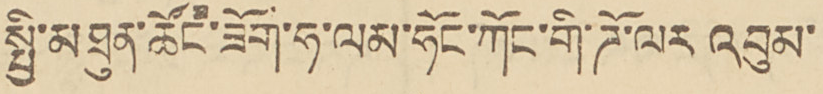སྤྱི་མཐུན་ཚོང་ཟོག་ཧ་ལམ་ཧོང་ཀོང་གི་ཌོ་ལར འབུམ་
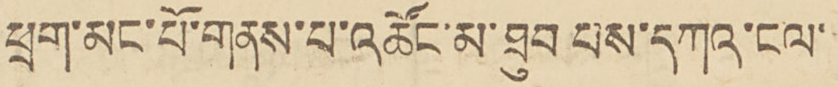ཕྲག་མང་པོ་གནས་པ་འཚོང་མ་ཐུབ པས་དཀའ་ངལ་
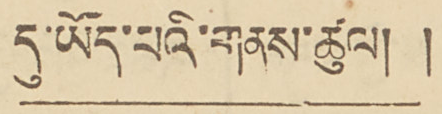དུ་ཡོད་པའི་གནས་ཚུལ། །
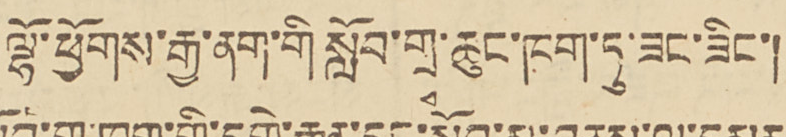ལྷོ་ཕྱོགས་རྒྱ་ནག་གི་སློབ་གྲྭ་ཆུང་ཁག་ཏུ་ཟང་ཟིང་།
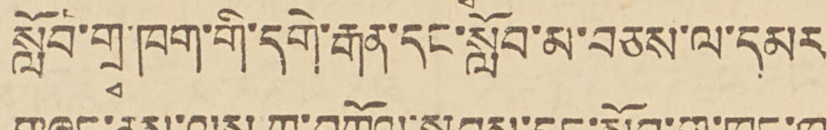སློབ་གྲྭ་ཁག་གོ་དགེ་རྒན་དང་སློབ་མ་བཅས་ལ་དམར
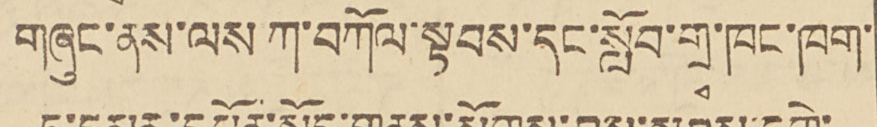གཞུང་ནས་ལས ཀ་བཀོལ་སྟབས་དང་སློབ་གྲྭ་ཁང་ཁག་
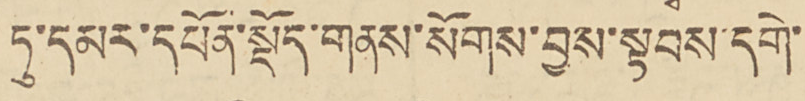ཏུ་དམར་དཔོན་སྡོད་གནས་སོགས་བྱས་སྟབས་དགེ་
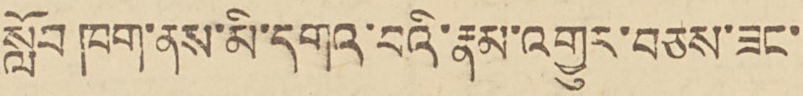སློབ་ཁག་ནས་མི་དགའ་བའི་རྣམ་འགྱུར་བཅས་ཟང་
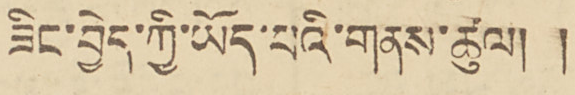ཟིང་བྱེད་ཀྱི་ཡོད་གནས་ཚུལ། །
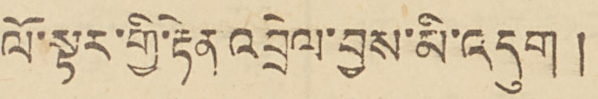ལོ་སྟར་གྱི་རྟེན འབྲེལ་བྱས་མི་འདུག །
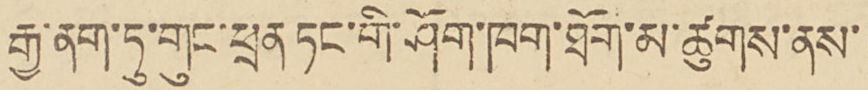རྒྱ་ནག་ཏུ་གུང་ཕྲན ཏང་གི་ཤོག་ཁག་ཐོག་མ་ཚུགས་ནས་
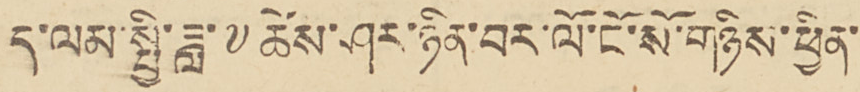ད་ལམ་སྤྱི་ཟླ་༧ཚེས་ཤར་ཉིན་བར་ལོ་ངོ་སོ་གཉིས་ཕྱིན་
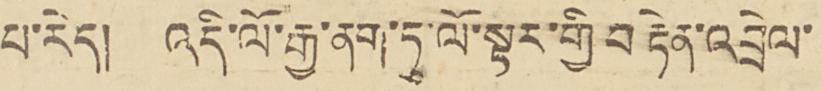པ་རེད། འདི་ལོ་རྒྱ་ནག་ཏུ་ལོ་སྟར་གྱི བརྟེན་འབྲེལ་
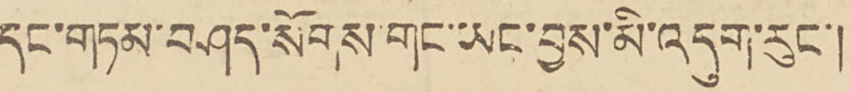དང་གཏམ་བཤད་སོགས་གང་ཡང་བྱས་མི་འདུག་རུང་།
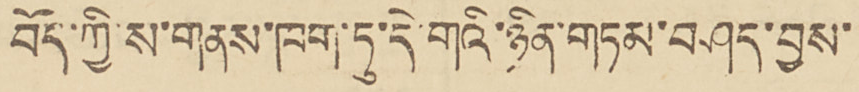བོད་ཀྱི་ས་གནས་ཁག་ཏུ་དེ་གའི་ཉིན་གཏམ་བཤད་བྱས་
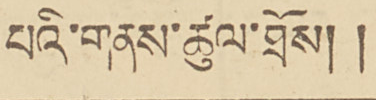པའི་གནས་ཚུལ་ཐོས།།
